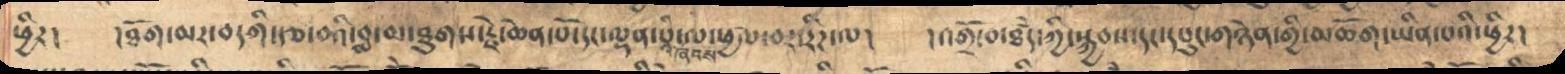ཕྱིར། །ཐོག་མར་བདགི་རྩ་བའི་བླ་མ་ཐུགས་རྗེ་ཆེན་པོ་དང་ལྡན་པི་ལ་ཕྱལ་བར་རིཌ་ལ། །འགྲོ་བ་ཐཾད་ཀྱི་སྐྱབས་དང་དཔུང་གཉེན་གྱི་མཆོག་ཡིན་པའི་ཕྱིར།
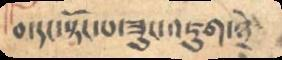བ་དངདསྟོངཔ་ཟུང་འཇུག་ཉྲེ
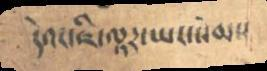དེའང་ཇི་ལྟར་ཡང་སེམས
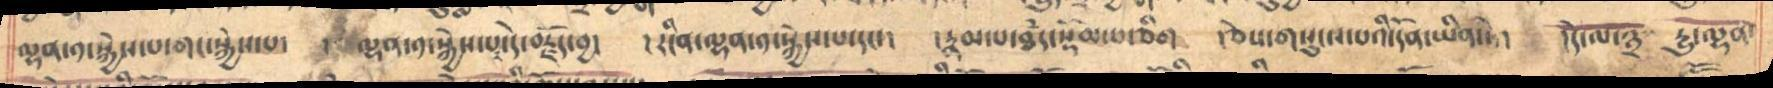ལྷན་༡་སྐྱེས་པ་གང་སྐྱེས་པ་ ལྷན་༡་སྐྱེས་པ་དེ་བརྗོད་བྱ། །རིངན་ལྷན་༡་སྐྱེས་པ་དང་། །རྣམ་པ་ཐཾད་སྡོམ་པ་ཅིག །ཅེས་གསུངས་པའི་དོན་ཡིན་ཏེ། །དེ་ལ་༣ རྒྱུ་ལྷན་
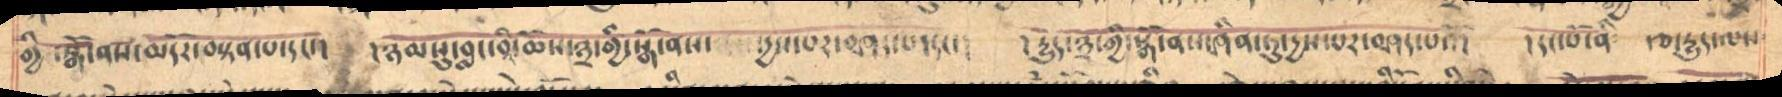གྱི སྒོ་ནས་མདོར་བསྟན་པ་དང་། །ཉམསུ་བླང་བའི་ཆོས་༣་གྱི་སྒོ་ནས་ །དྱུས་པར་བཤད་པ་དང་། །རྱུད་༣་གྱི་སྒོ་ནས་ཤིན་ཏུ་དྱས་པར་བཤད་པའོ། །དང་པོ་ནི རྩ་རྱུད་ལས
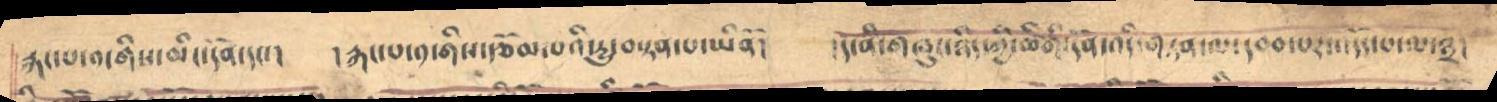རྐངཔ་བདགིས་མིང་དོན་དང། །རྐང་པ་བདགིས་རྩོམ་པའི་རྱུ་བསྟན་པ་ཡིནོ། །ད་ནི་གཞུང་ཉིད་ཀྱི་ཚིིགི་དོན་འདི་གཏན་ལ་དབབ་པར་྄འདོད་ལ་ཉྲ།
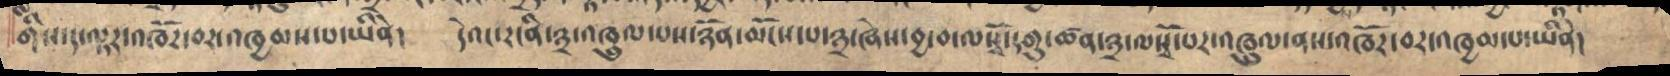གིས་ད་ལྟར་འཁོར་བར་འཁྱམས་པ་ཡིན། དེའང་རངིན་༣་འཁྲུལ་པས་ཉོན་མོངས་པ་༣་ཞེས་བྱ་བ་ལ་སྭོ་དགུ་ཚན་༣་ལསྭོ་པཌ་འཁྲུལ་ནས་འཁོར་བར་འཁྱམ་པ་ཡིན།
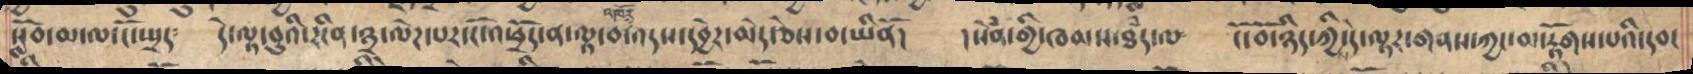སློབ་མ་ལ་ངོ་ཡྲད༴   དེ་ལྟ་བུའི་རིངན་༣་ལེཌ་པར་ངོ་འཕྲོད་ན་ལྟ་བ་འདས་དབྱེར་མེད་ཅེས་བ་ཡིནོ།   །སེཾན་གྱི་ཁམས་ཐཾད་ལ   ་ངོ་བོ་ཉིད་ཀྱི་དེ་ལྟར་གནས་ཀྱང་མ་རྟོགས་པའི་དབང་
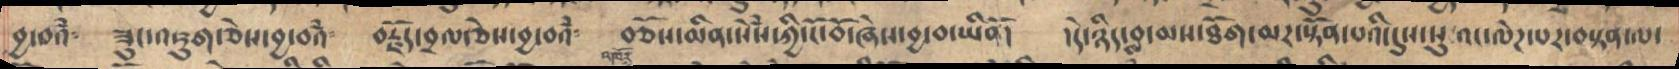བྱ་བའཾ༴   ཟུང་འཇུག་ཅེས་བྱ་བའཾ    བརྗོད་བྲལ་ཅེས་བྱ་བའཾ༴    བཅོས་མིན་སེཾས་ཀྱི་ངོ་བོ་ཞེས་བྱ་བ་ཡིནོ།  ། དེ་ཉིད་བླ་མས་ཐོག་མར་སྟོན་པའི་དུས་སུ་འང་ལེཌ་པར་བསྟན་ལ་
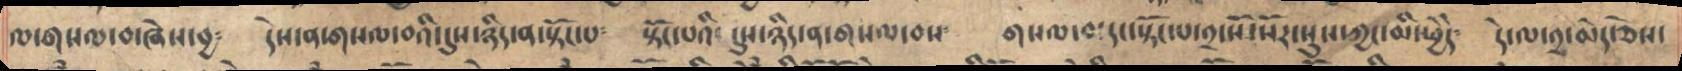ལ་གསལ་བ་ཞེས་བྱ་  དེས་ན་གསལ་བའི་དུས་ཉིད་ན་སྟོང་པ་  སྟོང་པའི་དུས་ཉིད་ན་གསལ་བས་  གསལ་བ་དང་སྟོང་པ་༢་སོ་སོར་སུས་ཀྱང་མི་ཕྱེེད་  དེ་ལ་༢་མེད་ཅེས་
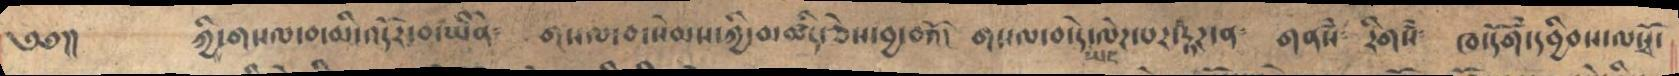༄༅།།      ཀྱི་གསལ་བ་མི་འདོར་བ་ཡིན༴    གསལ་བ་སེམས་ཀྱི་མཚིད་ཅེས་བྱ་བའོ།    གསལ་བ་དེ་ཡང་ལེཌ་པར་རྟོཌ་ན་    གནསཾ  རིགསཾ    ཁ་དོགཾ་དབྱིབས་ལསྭོ་
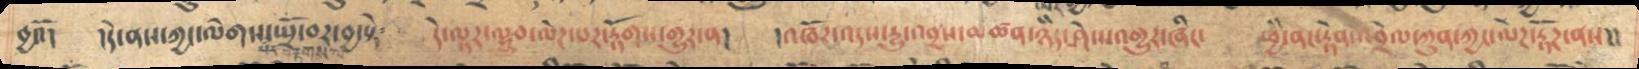བྱའོ།   །དེ་ནས་ཀྱང་ལེགས་པར་གསང་ཡྲོ་བར་བྱ་སྟེ༴    དེ་ལྟར་ལྷུབ་ལེཌ་པར་རྟོགས་གྱུར་ན།   །འཁོར་འདས་རྱུ་འབྲས་མཚན་ཉིད་ཤེས་འགྱུར་ཞིང་    ཕྱི་ནང་རྟེན་འབྲེལ་ཀུན་ཀྱང་ལེཌ་རྟོཌ་ནས་།།
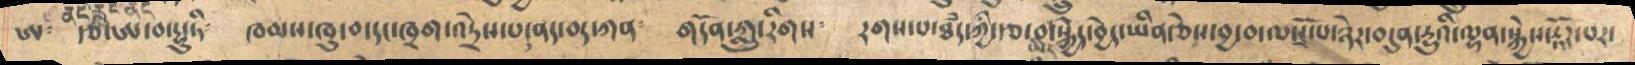ཨ     རྩ་ཨ་བ་ཏྷུ་ཏི༴   ཁམས་ཁུ་བ་དང་ཁྲག་འཏྲེས་པ། ནད་པར་ཀན༴   གདོན་ཀླུ་རིགས    རགས་པ་ཐཾད་ཀྱི་རྩ་བ་ཡིད་སྐྱེད་བྱེད་ཡིན་ཅེས་བྱ་བ་ལསོཌ་པ་ཉེར་བདུན་རྱུའི་ལྷན་སྐྱེས་རྟོཌ་པར་
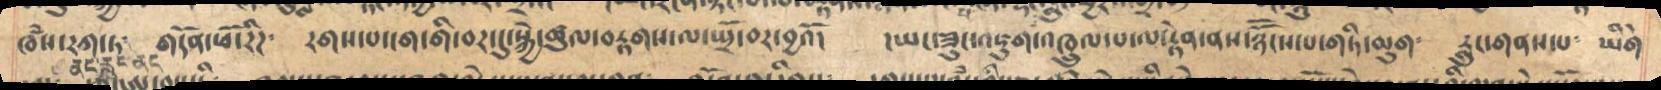ཁཾས་རག་ཏ༴  གདོན་ཕོ་རིཌ་   རགས་པ་ངག་གི་བར་དུ་སྐྱེ་ཚུལ་བརྟགས་ལ་ཡྲོ་བར་བྱའོ།   །ཡང་ཟུང་འཇུག་འཁྲུལ་པ་ལ་རྟེན་ནས་ཉོོངས་གཏི་མུག   རླུུང་གནས་པ་ཡིགེ་
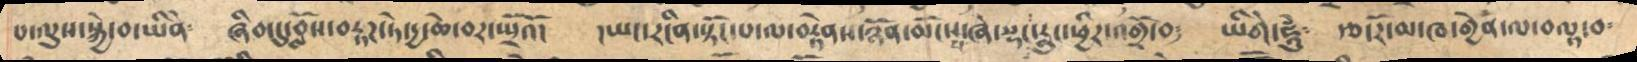པ་ལུས་སྐྱེ་བ་ཡིན་    ཞིབ་དུ་བློས་བརྟཌ་ཏེ་ཏྱ་ཆེ་བར་ཡྲོའ།   །ཡང་རིངན་སྟོང་པ་ལ་བརྟེནས་ཉོན་མོངས་པ་ཞེ་སྡང་རླུང་ཕྱིར་འགྲོ་བ༴   ཡིགེ་ཧཱུཾ༴  རྩ་རོ་མ་ཁ་གྱིན་ལ་བལྟ་བ༴
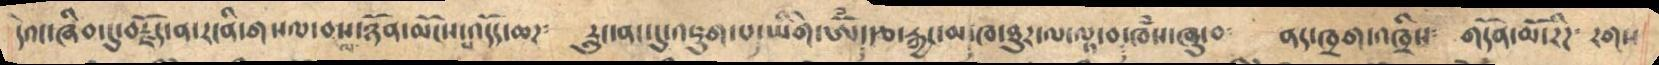དེའང་ཞིབ་དུ་འརྗོད་ན་རངིན་གསལ་བས་ཉོན་མོངས་འདོད་ཆཌ༴    རླུང་ནད་དུ་འཇུག་པ་ཡིགེ་ཨོཾ་རྩ་རྒྱང་མ་ཁ་ཐུཌ་ལ་ལྟ་བ་ཁཾས་ཞུ་བ   ནར་ཁྲག་འཁྲིས་  གདོན་མོ་རིཌ རགས༴
